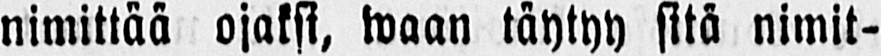nimittää ojaksi, waan täytyy sitä nimit-
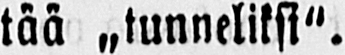tää ˶tunneliksi".
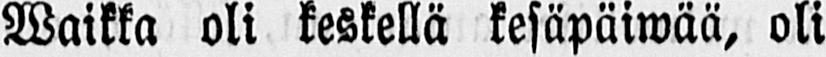Waikka oli keskellä kesäpäiwää, oli
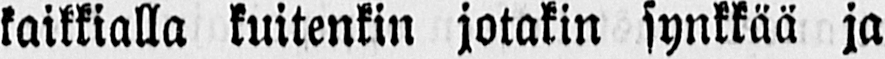kaikkialla kuitenkin jotakin synkkää ja
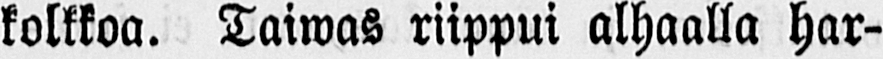kolkkoa. Taiwas riippui alhaalla har-
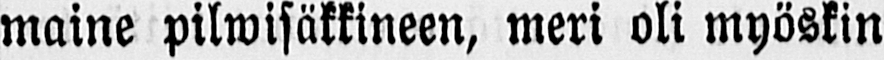maine pilwisäkkineen, meri oli myöskin
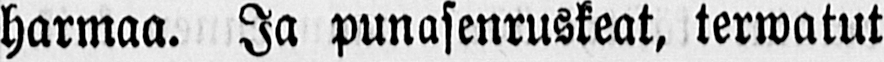harmaa. Ja punasenruskeat, terwatut
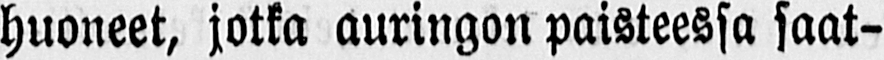huoneet, jotka auringon paisteessa saat-
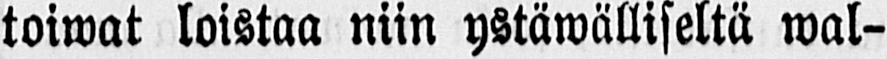toiwat loistaa niin ystäwälliseltä wal-
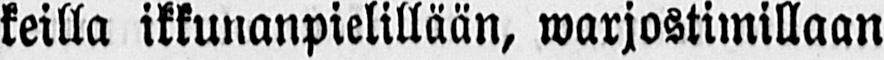keilla ikkunanpielillään, warjostimillaan
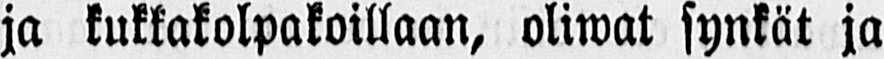ja kukkakolpakoillaan, oliwat synkät ja
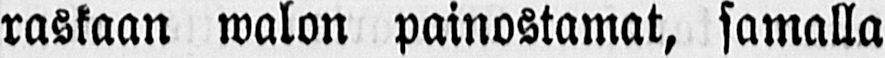raskaan walon painostamat, samalla
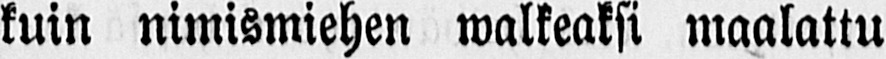kuin nimismiehen walkeaksi maalattu
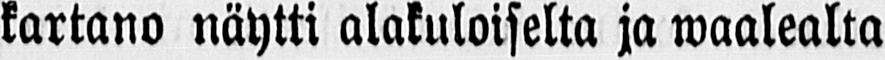kartano näytti alakuloiselta ja waalealta
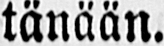tänään.
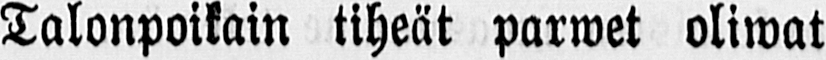Talonpoikain tiheät parwet oliwat
